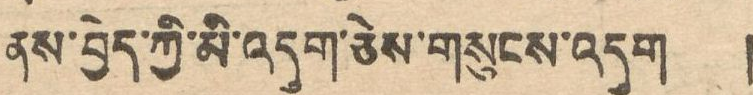ནས་བྱེད་ཀྱི་མི་འདུག་ཅེས་གསུངས་འདུག །
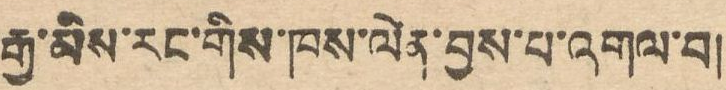རྒྱ་མིས་རང་གིས་ཁས་ལེན་བྱས་པ་འགལ་བ།
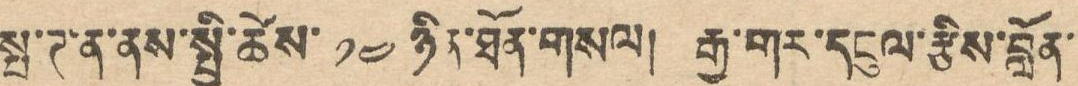སྤ་ཊ་ན་ནས་སྤྱི་ཚེས་ ༡༤ ཉིན་ཐོན་གསལ། རྒྱ་གར་དངུལ་རྩིས་བློན་
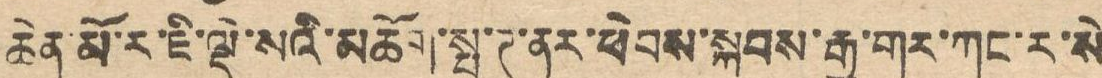ཆེན་མོ་ར་ཇི་ལྡེ་སའི་མཆོག་སྤ་ཊ་ནར་ཕེབས་སྐབས་རྒྱ་གར་ཀང་ར་སེ
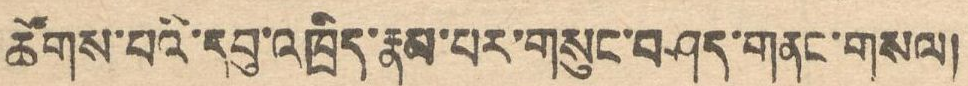ཚོགས་པའི་དབུ་འཁྲིད་རྣམ་པར་གསུང་བཤད་གནང་གསལ།
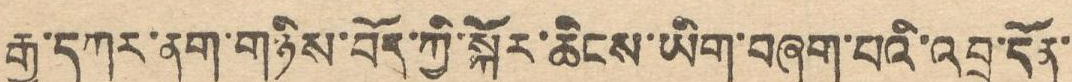རྒྱ་དཀར་ནག་གཉིས་བོད་ཀྱི་སྐོར་ཆིངས་ཡིག་བཞག་པའི་འབྱུ་དོན་
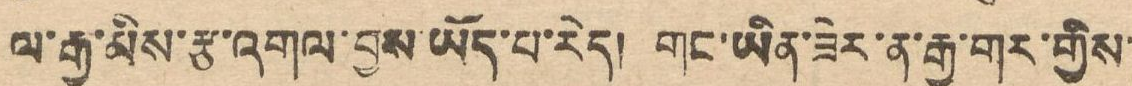ལ་རྒྱ་མིས་རྩ་འགལ་བྱས་ཡོད་པ་རེད། གང་ཡིན་ཟེར་ན་རྒྱ་གར་གྱིས་
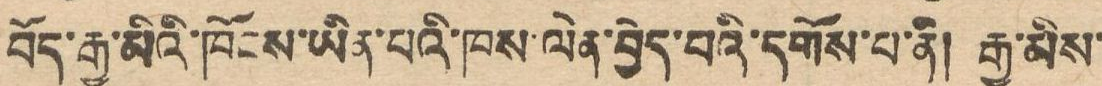བོད་རྒྱ་མིའི་ཁོངས་ཡིན་པའི་ཁས་ལེན་བྱེད་པའི་དགོས་པ་ནི། རྒྱ་མིས་
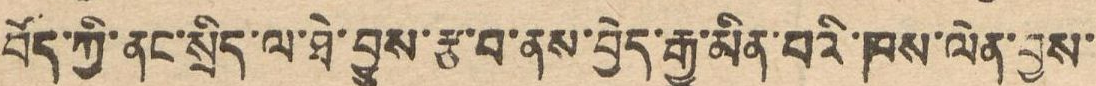བོད་ཀྱི་ནང་སྲིད་ལ་ཐེ་བྱུས་རྩ་བ་ནས་བྱེད་རྒྱུ་མིན་པའི་ཁས་ལེན་བྱས་
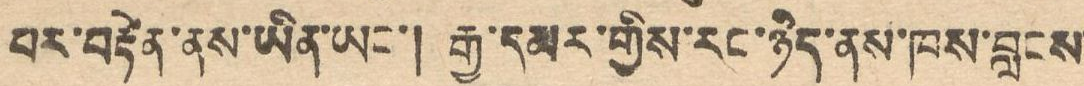པར་བརྟེན་ནས་ཡིན་ཡང་། རྒྱ་དམར་གྱིས་རང་ཉིད་ནས་ཁས་བླངས་
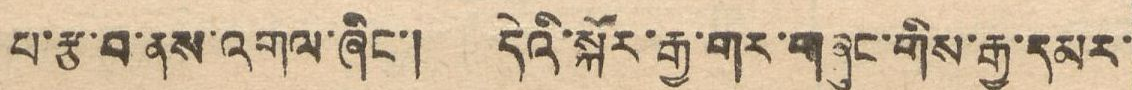པ་རྩ་བ་ནས་འགལ་ཞིང་། དེའི་སྐོར་རྒྱ་གར་གཞུང་གིས་རྒྱ་དམར་
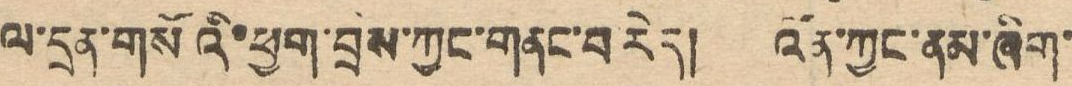ལ་དྲན་གསོའི་ཕྱག་བྲས་ཀྱང་གནང་བ རེད། འོན་ཀྱང་ནམ་ཞིག་
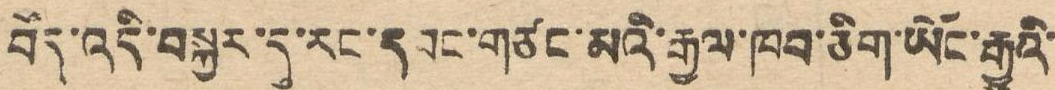བོད་འདི་བསྐྱར་དུ་རང་དབང་གཙང་མའི་རྒྱལ་ཁབ་ཅིག་ཡོང་རྒྱུའི་
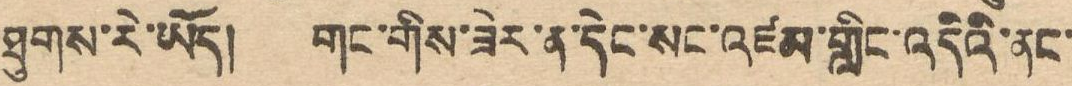ཐུགས་རེ་ཡོད། གང་གིས་ཟེར་ན་དེང་སང་འཛམ་གླིང་འདིའི་ནང་
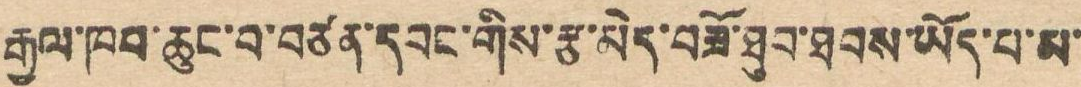རྒྱལ་ཁབ་ཆུང་བ་བཙན་དབང་གིས་རྩ་མེད་བཟོ་ཐུབ་ཐབས་ཡོད་པ་མ་
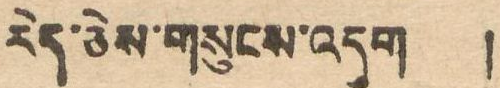རེད་ཅེས་གསུངས་འདུག །
